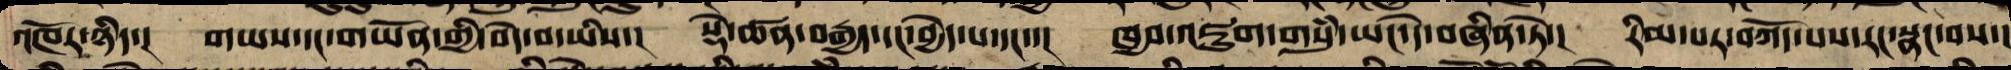འཁོར་ཉིད་། གཡས་དང་གཡོན་གྱིས་བདེ་བ་ཡིས་། སྡེ་ཚན་བརྒྱད་དང་བྱེད་པ་དང་་། ཁྱབ་འཇུག་གསུཾ་ཡང་དེ་བཞིན་ཏེ་། རིམ་པར་བཀོད་པས་རང་སྣང་བས་།
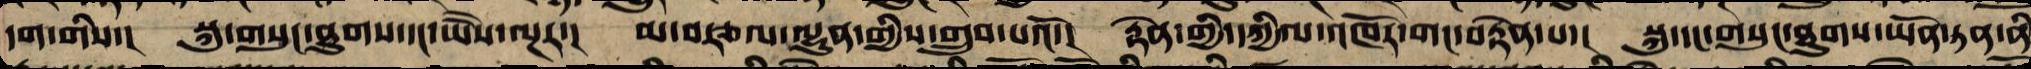དག་གིས་། སྐུ་གསུང་ཐུགས་དང་ཡཻས་ལྔར་། མ་བརྩལ་ལྷུན་གྱིས་གྲུབ་པའོ་། རྟེན་གྱི་དཀྱིལ་འཁོར་གང་བརྟེན་པ་། སྐུ་དང་གསུང་ཐུགས་ཡོན་ཏན་ནི
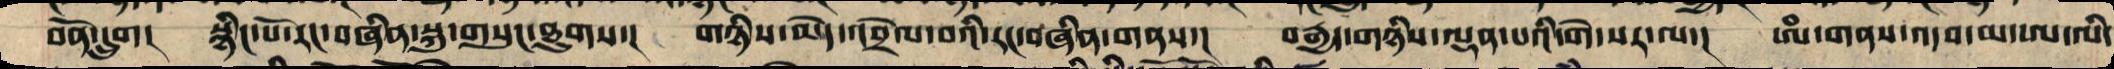བོན་དྲུག། སྙིང་པོ་རང་བཞིན་སྐུ་གསུང་ཐུགས་། གཉིས་མེད་འབྲེལ་བའི་རང་བཞིན་གནས་། བརྒྱད་གཉིས་ལྡན་པའི་གེ་སར་ལ་། ཨཾ་གནས་འདབ་མ་ཨ་ལི་
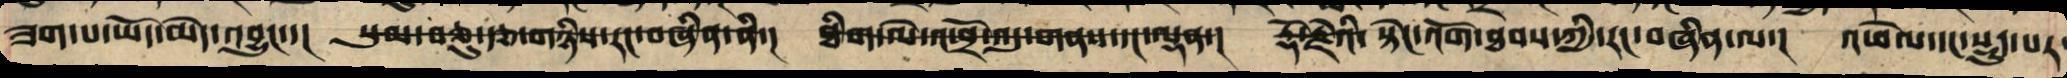ཟག་པ་ཡོད་མེད་འབྱུང་་། སུམ་བཅུ་རྩ་གཉིས་རང་བཞིན་ནི་། ཐིག་ལེ་འཕྲོ་འདུ་གནས་དང་ལྡན་། རྡོ་རྗེའི་སྟེང་འོག་ཐབས་ཀྱི་རང་བཞིན་ལ་། འཕེལ་དང་སྡུད་པར་
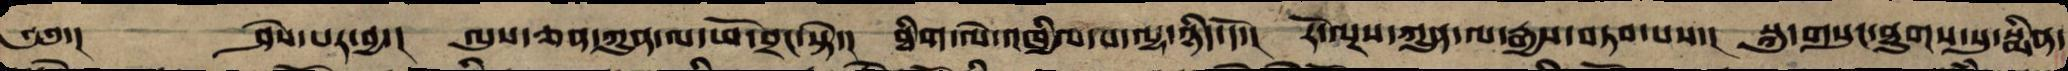༄༅་། ཤེས་པར་བྱ་། ལུས་ཅན་ཀུན་ལ་ཕོ་བྲང་སྟེ་། ཐིག་ལེ་འཁྱིལ་པ་ལྷ་ཉིད་དོ་། རོ་ལྔས་ཀུན་ལ་རྒྱས་བཏབ་པས་། སྐུ་གསུང་ཐུགས་སུ་སྨིན་
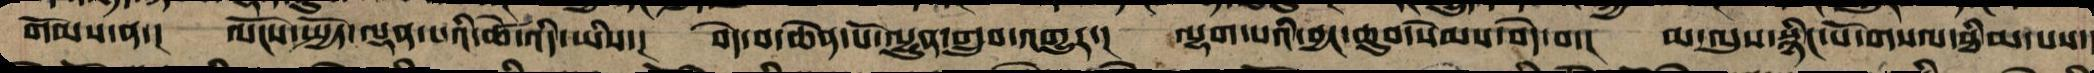གོམས་ན་། ལོངས་སྤྱོད་ལྡན་པའི་ཚེ་འདི་ཡིས་། བདེ་བ་ཆེན་པོ་ལྷུན་གྲུབ་འགྱུར་། ལྷག་པའི་བྱང་ཆུབ་སེམས་བདེ་བ་། མ་ལུས་སྙིང་པོར་གསལ་ཐིམ་པས་
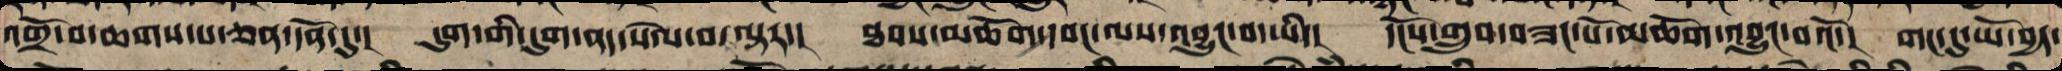འགྲོ་བ་ཆགས་པ་ཅན་དོན་དུ་། དུག་གིས་དུག་ནད་སེལ་བ་ལྟར་། ཐབས་མཆོག་དབང་ལས་བྱུང་བ་ཡི་། དངོས་གྲུབ་བཟང་པོ་མཆོག་འབྱུང་བའོ་། གང་དུ་ཡོ་བྱད་
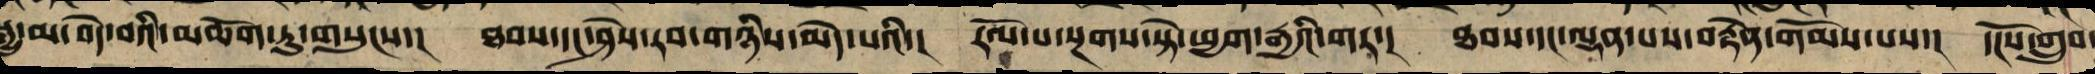སྒྱུ་མ་བདེ་བའི་མཆོག་ཏུ་གསུངས་། ཐབས་དང་ཤེས་རབ་གཉིས་མེད་པའི་། རོལ་པ་སྔགས་ཏེ་ཕྱག་རྒྱའི་གར་། ཐབས་དང་ལྡན་པས་བརྟེན་གོམས་པས་། དངོས་གྲུབ་
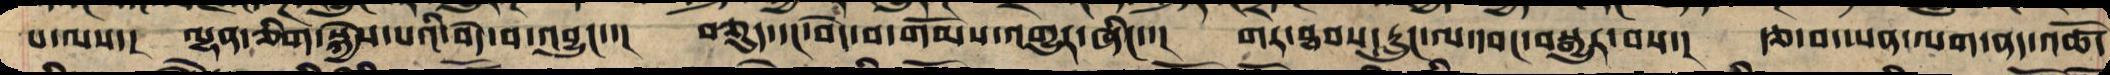པ་ལས་།  ལྷན་ཅིག་སྐྱེས་པའི་བདེ་བ་འབྱུང་་།  བཅུད་དང་བདེ་ལ་གོམས་འགྱུར་ཞིང་་།  གར་ཐབས་རླུང་ལ་དབང་བསྒྱུར་བས་།  རྩ་བ་ཡན་ལག་ནད་འཚོ་
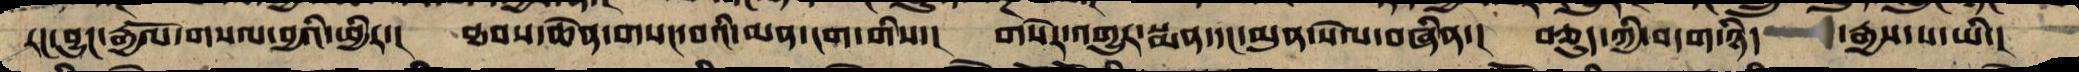རང་བྱུང་རྒྱཔོ་གསལ་བྱའི་ཕྱིར་། ཐབས་ཆེན་གསང་བའི་མན་ངག་གིས་། གསེར་འགྱུར་སྨན་དང་མུན་སེལ་བཞིན་། བཅུད་ཀྱི་བདག་ཉིད་རྒྱས་པ་ཡི་།
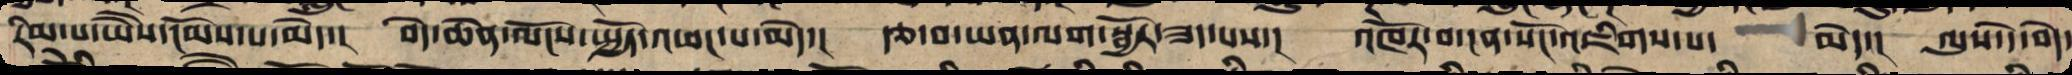རིམ་པ་ཡཻས་ངོམས་པ་མེད་། བདེ་ཆེན་ལོངས་སྤྱོད་ཕོངས་པ་མེད་། རྩ་བ་ཡན་ལག་སྦྱོར་ཟད་པས་། འཁོར་བ་ངན་སོང་འཇིགས་པ་མེད་། ལུས་དེ་བདེ་
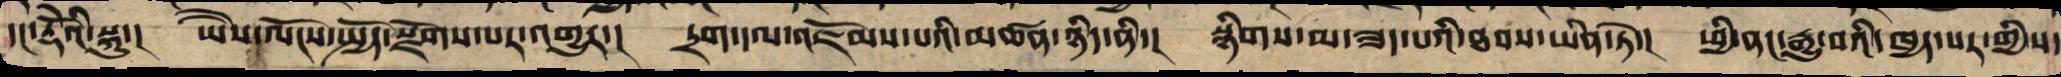དང་རྡོེའི་སྐུ་། ཡཻས་ལོངས་སྤྱོད་སྫོགས་པར་འགྱུར་། དྲག་དལ་འཇོམས་པའི་མཚན་ཉིད་ནི་། སྙིགས་མ་ཟད་པའི་ཐབས་ཡིན་ཏེ་། ཕྱི་ནང་རྒྱུ་བའི་ཁྱད་པར་གྱིས་
